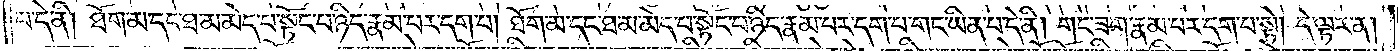པ་དེ་ནི། ཐོག་མ་དང་ཐ་མ་མེད་པ་སྟོང་པ་ཉིད་རྣམ་པར་དག་པ། ཐོག་མ་དང་ཐ་མ་མེད་པ་སྟོང་པ་ཉིད་རྣམ་པར་དག་པ་གང་ཡིན་པ་དེ་ནི། གང་ཟག་རྣམ་པར་དག་པ་སྟེ། དེ་ལྟར་ན།
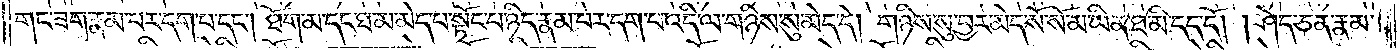གང་ཟག་རྣམ་པར་དག་པ་དང༌། ཐོག་མ་དང་ཐ་མ་མེད་པ་སྟོང་པ་ཉིད་རྣམ་པར་དག་པ་འདི་ལ་གཉིས་སུ་མེད་དེ། གཉིས་སུ་བྱར་མེད་སོ་སོ་མ་ཡིན་ཐ་མི་དད་དོ། །ཤེད་ཅན་རྣམ་
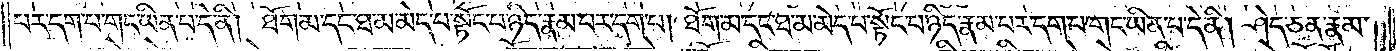པར་དག་པ་གང་ཡིན་པ་དེ་ནི། ཐོག་མ་དང་ཐ་མ་མེད་པ་སྟོང་པ་ཉིད་རྣམ་པར་དག་པ། ཐོག་མ་དང་ཐ་མ་མེད་པ་སྟོང་པ་ཉིད་རྣམ་པར་དག་པ་གང་ཡིན་པ་དེ་ནི། ཤེད་ཅན་རྣམ་
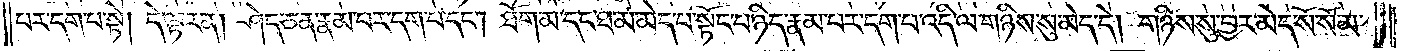པར་དག་པ་སྟེ། དེ་ལྟར་ན། ཤེད་ཅན་རྣམ་པར་དག་པ་དང༌། ཐོག་མ་དང་ཐ་མ་མེད་པ་སྟོང་པ་ཉིད་རྣམ་པར་དག་པ་འདི་ལ་གཉིས་སུ་མེད་དེ། གཉིས་སུ་བྱར་མེད་སོ་སོ་མ་
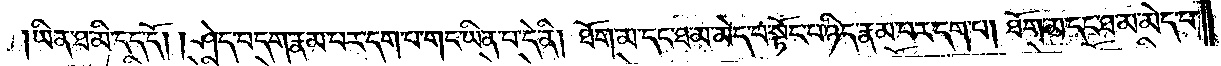ཡིན་ཐ་མི་དད་དོ། །ཤེད་བདག་རྣམ་པར་དག་པ་གང་ཡིན་པ་དེ་ནི། ཐོག་མ་དང་ཐ་མ་མེད་པ་སྟོང་པ་ཉིད་རྣམ་པར་དག་པ། ཐོག་མ་དང་ཐ་མ་མེད་པ་
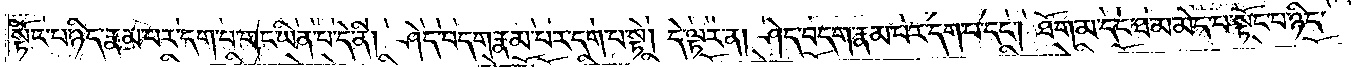སྟོང་པ་ཉིད་རྣམ་པར་དག་པ་གང་ཡིན་པ་དེ་ནི། ཤེད་བདག་རྣམ་པར་དག་པ་སྟེ། དེ་ལྟར་ན། ཤེད་བདག་རྣམ་པར་དག་པ་དང༌། ཐོག་མ་དང་ཐ་མ་མེད་པ་སྟོང་པ་ཉིད་
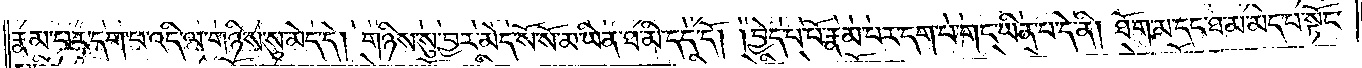རྣམ་པར་དག་པ་འདི་ལ་གཉིས་སུ་མེད་དེ། གཉིས་སུ་བྱར་མེད་སོ་སོ་མ་ཡིན་ཐ་མི་དད་དོ། །བྱེད་པ་པོ་རྣམ་པར་དག་པ་གང་ཡིན་པ་དེ་ནི། ཐོག་མ་དང་ཐ་མ་མེད་པ་སྟོང་
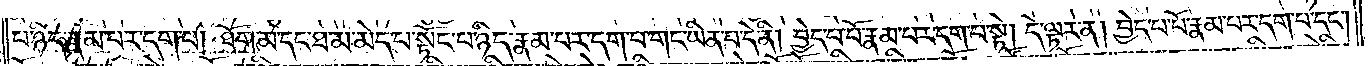པ་ཉིད་རྣམ་པར་དག་པ། ཐོག་མ་དང་ཐ་མ་མེད་པ་སྟོང་པ་ཉིད་རྣམ་པར་དག་པ་གང་ཡིན་པ་དེ་ནི། བྱེད་པ་པོ་རྣམ་པར་དག་པ་སྟེ། དེ་ལྟར་ན། བྱེད་པ་པོ་རྣམ་པར་དག་པ་དང༌།
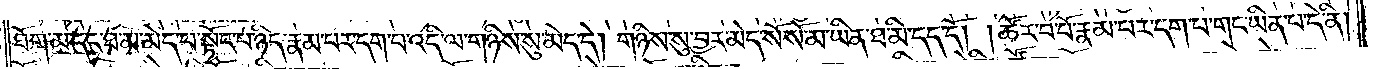ཐོག་མ་དང་ཐ་མ་མེད་པ་སྟོང་པ་ཉིད་རྣམ་པར་དག་པ་འདི་ལ་གཉིས་སུ་མེད་དེ། གཉིས་སུ་བྱར་མེད་སོ་སོ་མ་ཡིན་ཐ་མི་དད་དོ། །ཚོར་བ་པོ་རྣམ་པར་དག་པ་གང་ཡིན་པ་དེ་ནི།
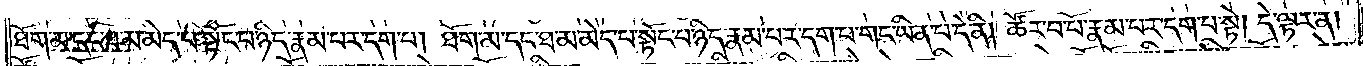ཐོག་མ་དང་ཐ་མ་མེད་པ་སྟོང་པ་ཉིད་རྣམ་པར་དག་པ། ཐོག་མ་དང་ཐ་མ་མེད་པ་སྟོང་པ་ཉིད་རྣམ་པར་དག་པ་གང་ཡིན་པ་དེ་ནི། ཚོར་བ་པོ་རྣམ་པར་དག་པ་སྟེ། དེ་ལྟར་ན།
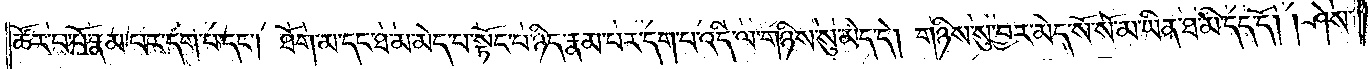ཚོར་བ་པོ་རྣམ་པར་དག་པ་དང༌། ཐོག་མ་དང་ཐ་མ་མེད་པ་སྟོང་པ་ཉིད་རྣམ་པར་དག་པ་འདི་ལ་གཉིས་སུ་མེད་དེ། གཉིས་སུ་བྱར་མེད་སོ་སོ་མ་ཡིན་ཐ་མི་དད་དོ། །ཤེས་
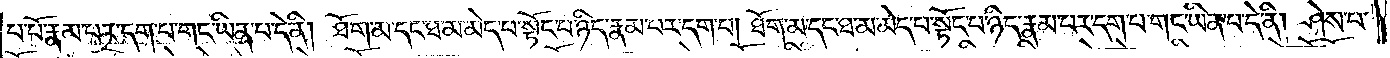པ་པོ་རྣམ་པར་དག་པ་གང་ཡིན་པ་དེ་ནི། ཐོག་མ་དང་ཐ་མ་མེད་པ་སྟོང་པ་ཉིད་རྣམ་པར་དག་པ། ཐོག་མ་དང་ཐ་མ་མེད་པ་སྟོང་པ་ཉིད་རྣམ་པར་དག་པ་གང་ཡིན་པ་དེ་ནི། ཤེས་པ་
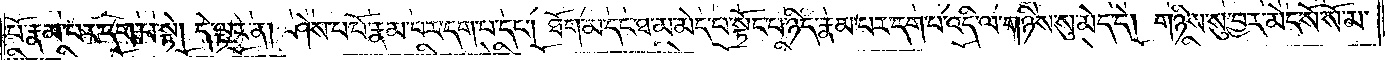པོ་རྣམ་པར་དག་པ་སྟེ། དེ་ལྟར་ན། ཤེས་པ་པོ་རྣམ་པར་དག་པ་དང༌། ཐོག་མ་དང་ཐ་མ་མེད་པ་སྟོང་པ་ཉིད་རྣམ་པར་དག་པ་འདི་ལ་གཉིས་སུ་མེད་དེ། གཉིས་སུ་བྱར་མེད་སོ་སོ་མ་
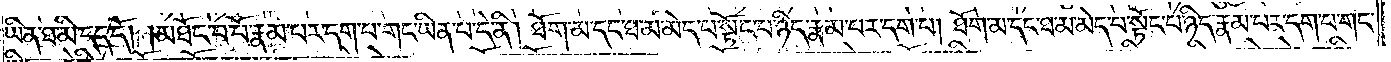ཡིན་ཐ་མི་དད་དོ། །མཐོང་བ་པོ་རྣམ་པར་དག་པ་གང་ཡིན་པ་དེ་ནི། ཐོག་མ་དང་ཐ་མ་མེད་པ་སྟོང་པ་ཉིད་རྣམ་པར་དག་པ། ཐོག་མ་དང་ཐ་མ་མེད་པ་སྟོང་པ་ཉིད་རྣམ་པར་དག་པ་གང་
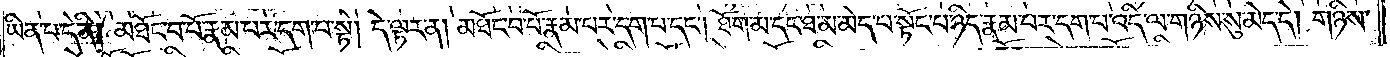ཡིན་པ་དེ་ནི། མཐོང་བ་པོ་རྣམ་པར་དག་པ་སྟེ། དེ་ལྟར་ན། མཐོང་བ་པོ་རྣམ་པར་དག་པ་དང༌། ཐོག་མ་དང་ཐ་མ་མེད་པ་སྟོང་པ་ཉིད་རྣམ་པར་དག་པ་འདི་ལ་གཉིས་སུ་མེད་དེ། གཉིས་
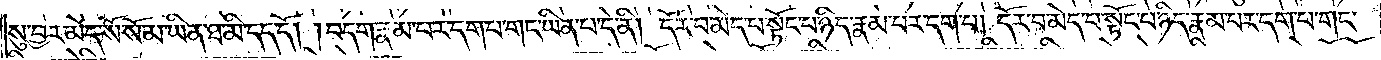སུ་བྱར་མེད་སོ་སོ་མ་ཡིན་ཐ་མི་དད་དོ། །བདག་རྣམ་པར་དག་པ་གང་ཡིན་པ་དེ་ནི། དོར་བ་མེད་པ་སྟོང་པ་ཉིད་རྣམ་པར་དག་པ། དོར་བ་མེད་པ་སྟོང་པ་ཉིད་རྣམ་པར་དག་པ་གང་
